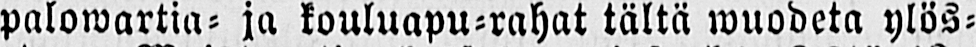palowartia- ja kouluapu-rahat tältä wuodeta ylös-
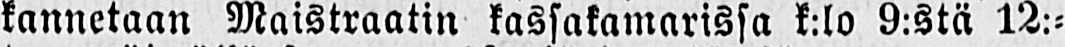kannetaan Maistraatin kassakamarissa k:la 9:stä 12:-
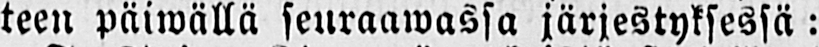teen päiwällä seuraawassa järjestyksessä:
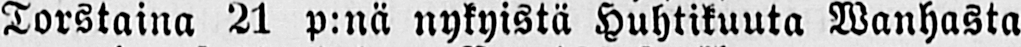Torstaina 21 p:nä nykyistä Huhtikuuta Wanhasta
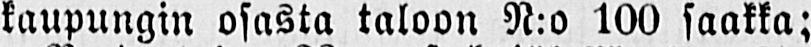kaupungin osasta taloon N:o 100 saakka;
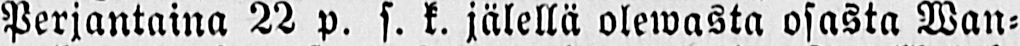Perjantaina 22 p. s. k. jälellä olewasta osasta Wan-
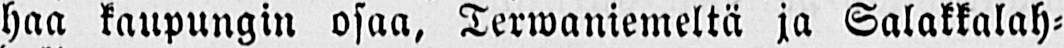haa kaupungin osaa, Terwaniemeltä ja Salakkalah-
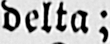delta;
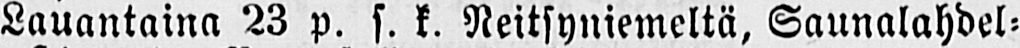Lauantaina 23 p. s. k. Neitsyniemeltä, Saunalahdel-
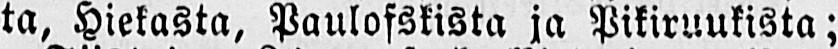ta, Hiekasta, Paulofskista ja Pikiruukista;
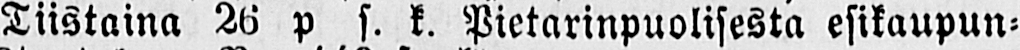Tiistaina 26 p s. k. Pietarinpuolisesta esikaupun-
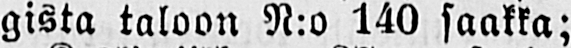gista taloon N:o 140 saakka;
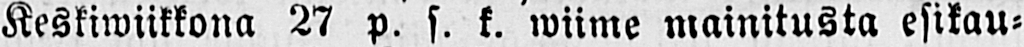Keskiwiikkona 27 p. s. k. wiime mainitusta esikau-
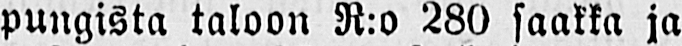pungista taloon R:o 280 saakka ja
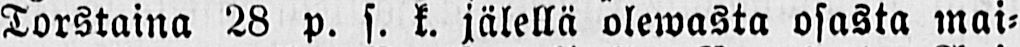Torstaina 28 p. s. k. jälellä olewasta osasta mai-
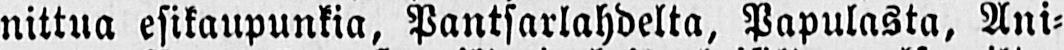nittua esikaupunkia, Pantsarlahdelta, Papulasta, Ani-
